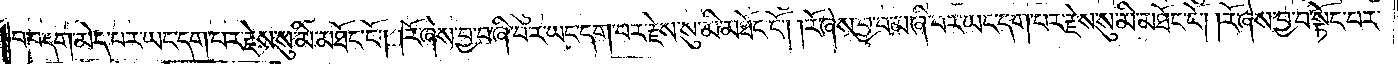བ་བདག་མེད་པར་ཡང་དག་པར་རྗེས་སུ་མི་མཐོང་ངོ༌། །རོ་ཞེས་བྱ་བ་ཞི་བར་ཡང་དག་པར་རྗེས་སུ་མི་མཐོང་ངོ༌། །རོ་ཞེས་བྱ་བ་མ་ཞི་བར་ཡང་དག་པར་རྗེས་སུ་མི་མཐོང་ངོ༌། །རོ་ཞེས་བྱ་བ་སྟོང་པར་
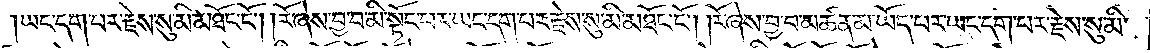ཡང་དག་པར་རྗེས་སུ་མི་མཐོང་ངོ༌། །རོ་ཞེས་བྱ་བ་མི་སྟོང་པར་ཡང་དག་པར་རྗེས་སུ་མི་མཐོང་ངོ༌། །རོ་ཞེས་བྱ་བ་མཚན་མ་ཡོད་པར་ཡང་དག་པར་རྗེས་སུ་མི་
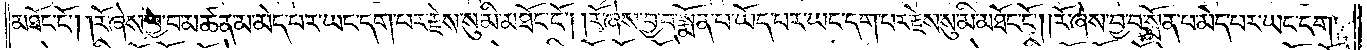མཐོང་ངོ༌། །རོ་ཞེས་བྱ་བ་མཚན་མ་མེད་པར་ཡང་དག་པར་རྗེས་སུ་མི་མཐོང་ངོ༌། །རོ་ཞེས་བྱ་བ་སྨོན་པ་ཡོད་པར་ཡང་དག་པར་རྗེས་སུ་མི་མཐོང་ངོ༌། །རོ་ཞེས་བྱ་བ་སྨོན་པ་མེད་པར་ཡང་དག་
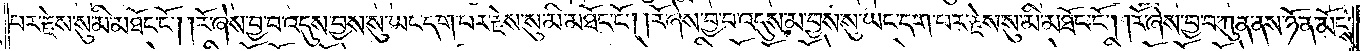པར་རྗེས་སུ་མི་མཐོང་ངོ༌། །རོ་ཞེས་བྱ་བ་འདུས་བྱས་སུ་ཡང་དག་པར་རྗེས་སུ་མི་མཐོང་ངོ༌། །རོ་ཞེས་བྱ་བ་འདུས་མ་བྱས་སུ་ཡང་དག་པར་རྗེས་སུ་མི་མཐོང་ངོ༌། །རོ་ཞེས་བྱ་བ་ཀུན་ནས་ཉོན་མོངས་
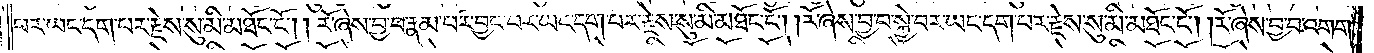པར་ཡང་དག་པར་རྗེས་སུ་མི་མཐོང་ངོ༌། །རོ་ཞེས་བྱ་བ་རྣམ་པར་བྱང་བར་ཡང་དག་པར་རྗེས་སུ་མི་མཐོང་ངོ༌། །རོ་ཞེས་བྱ་བ་སྐྱེ་བར་ཡང་དག་པར་རྗེས་སུ་མི་མཐོང་ངོ༌། །རོ་ཞེས་བྱ་བ་འགག་
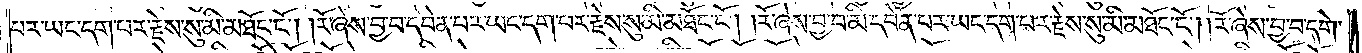པར་ཡང་དག་པར་རྗེས་སུ་མི་མཐོང་ངོ༌། །རོ་ཞེས་བྱ་བ་དབེན་པར་ཡང་དག་པར་རྗེས་སུ་མི་མཐོང་ངོ༌། །རོ་ཞེས་བྱ་བ་མི་དབེན་པར་ཡང་དག་པར་རྗེས་སུ་མི་མཐོང་ངོ༌། །རོ་ཞེས་བྱ་བ་དགེ་
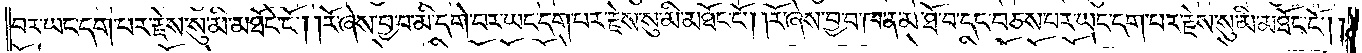བར་ཡང་དག་པར་རྗེས་སུ་མི་མཐོང་ངོ༌། །རོ་ཞེས་བྱ་བ་མི་དགེ་བར་ཡང་དག་པར་རྗེས་སུ་མི་མཐོང་ངོ༌། །རོ་ཞེས་བྱ་བ་ཁ་ན་མ་ཐོ་བ་དང་བཅས་པར་ཡང་དག་པར་རྗེས་སུ་མི་མཐོང་ངོ༌། །
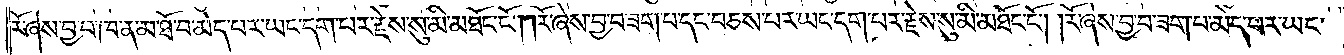རོ་ཞེས་བྱ་བ་ཁ་ན་མ་ཐོ་བ་མེད་པར་ཡང་དག་པར་རྗེས་སུ་མི་མཐོང་ངོ༌། །རོ་ཞེས་བྱ་བ་ཟག་པ་དང་བཅས་པར་ཡང་དག་པར་རྗེས་སུ་མི་མཐོང་ངོ༌། །རོ་ཞེས་བྱ་བ་ཟག་པ་མེད་པར་ཡང་
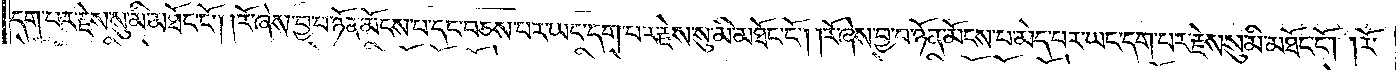དག་པར་རྗེས་སུ་མི་མཐོང་ངོ༌། །རོ་ཞེས་བྱ་བ་ཉོན་མོངས་པ་དང་བཅས་པར་ཡང་དག་པར་རྗེས་སུ་མི་མཐོང་ངོ༌། །རོ་ཞེས་བྱ་བ་ཉོན་མོངས་པ་མེད་པར་ཡང་དག་པར་རྗེས་སུ་མི་མཐོང་ངོ༌། །རོ་
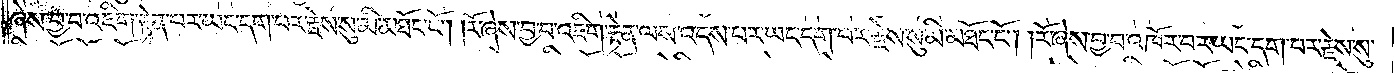ཞེས་བྱ་བ་འཇིག་རྟེན་པར་ཡང་དག་པར་རྗེས་སུ་མི་མཐོང་ངོ༌། །རོ་ཞེས་བྱ་བ་འཇིག་རྟེན་ལས་འདས་པར་ཡང་དག་པར་རྗེས་སུ་མི་མཐོང་ངོ༌། །རོ་ཞེས་བྱ་བ་འཁོར་བར་ཡང་དག་པར་རྗེས་སུ་
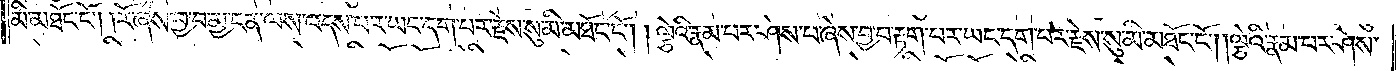མི་མཐོང་ངོ༌། །རོ་ཞེས་བྱ་བ་མྱ་ངན་ལས་འདས་པར་ཡང་དག་པར་རྗེས་སུ་མི་མཐོང་ངོ༌། །ལྕེའི་རྣམ་པར་ཤེས་པ་ཞེས་བྱ་བ་རྟག་པར་ཡང་དག་པར་རྗེས་སུ་མི་མཐོང་ངོ༌། །ལྕེའི་རྣམ་པར་ཤེས་
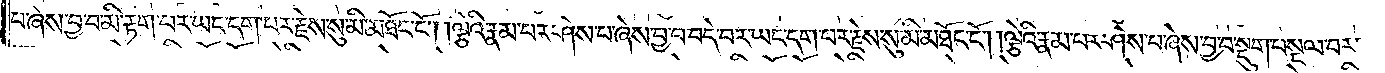པ་ཞེས་བྱ་བ་མི་རྟག་པར་ཡང་དག་པར་རྗེས་སུ་མི་མཐོང་ངོ༌། །ལྕེའི་རྣམ་པར་ཤེས་པ་ཞེས་བྱ་བ་བདེ་བར་ཡང་དག་པར་རྗེས་སུ་མི་མཐོང་ངོ༌། །ལྕེའི་རྣམ་པར་ཤེས་པ་ཞེས་བྱ་བ་སྡུག་བསྔལ་བར་
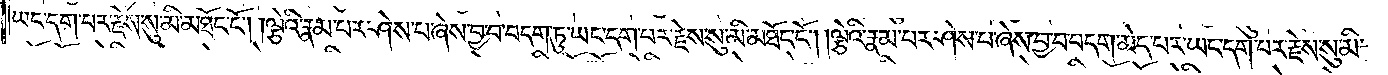ཡང་དག་པར་རྗེས་སུ་མི་མཐོང་ངོ༌། །ལྕེའི་རྣམ་པར་ཤེས་པ་ཞེས་བྱ་བ་བདག་ཏུ་ཡང་དག་པར་རྗེས་སུ་མི་མཐོང་ངོ༌། །ལྕེའི་རྣམ་པར་ཤེས་པ་ཞེས་བྱ་བ་བདག་མེད་པར་ཡང་དག་པར་རྗེས་སུ་མི་
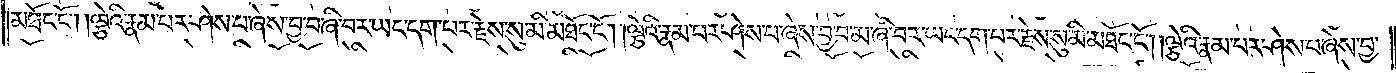མཐོང་ངོ༌། །ལྕེའི་རྣམ་པར་ཤེས་པ་ཞེས་བྱ་བ་ཞི་བར་ཡང་དག་པར་རྗེས་སུ་མི་མཐོང་ངོ༌། །ལྕེའི་རྣམ་པར་ཤེས་པ་ཞེས་བྱ་བ་མ་ཞི་བར་ཡང་དག་པར་རྗེས་སུ་མི་མཐོང་ངོ༌། །ལྕེའི་རྣམ་པར་ཤེས་པ་ཞེས་བྱ་
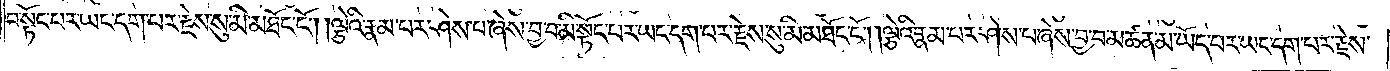བ་སྟོང་པར་ཡང་དག་པར་རྗེས་སུ་མི་མཐོང་ངོ༌། །ལྕེའི་རྣམ་པར་ཤེས་པ་ཞེས་བྱ་བ་མི་སྟོང་པར་ཡང་དག་པར་རྗེས་སུ་མི་མཐོང་ངོ༌། །ལྕེའི་རྣམ་པར་ཤེས་པ་ཞེས་བྱ་བ་མཚན་མ་ཡོད་པར་ཡང་དག་པར་རྗེས་
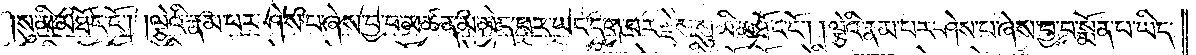སུ་མི་མཐོང་ངོ༌། །ལྕེའི་རྣམ་པར་ཤེས་པ་ཞེས་བྱ་བ་མཚན་མ་མེད་པར་ཡང་དག་པར་རྗེས་སུ་མི་མཐོང་ངོ༌། །ལྕེའི་རྣམ་པར་ཤེས་པ་ཞེས་བྱ་བ་སྨོན་པ་ཡིད་
